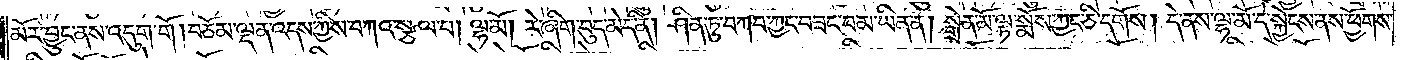མོར་བྱུང་ནས་འདུག་གོ །བཅོམ་ལྡན་འདས་ཀྱིས་བཀའ་སྩལ་པ། ལྷ་མོ། རེ་ཞིག་བུད་མེད་ནི། ཤིན་ཏུ་བཀབ་ཀྱང་བཟང་བ་མ་ཡིན་ན། སྒྲེན་མོ་ལྟ་སྨོས་ཀྱང་ཅི་དགོས། དེ་ནས་ལྷ་མོ་དེ་སྐྱེངས་ནས་ཕྱོགས་
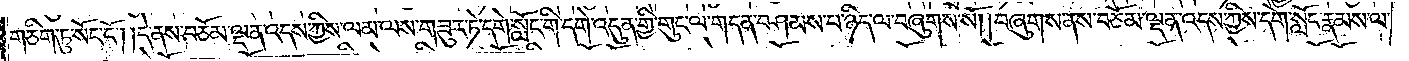གཅིག་ཏུ་སོང་ངོ༌། །དེ་ནས་བཅོམ་ལྡན་འདས་ཀྱིས་ལམ་ལས་གཟུར་ཏེ་དགེ་སློང་གི་དགེ་འདུན་གྱི་གུང་ལ་གདན་བཤམས་པ་ཉིད་ལ་བཞུགས་སོ། །བཞུགས་ནས་བཅོམ་ལྡན་འདས་ཀྱིས་དགེ་སློང་རྣམས་ལ་
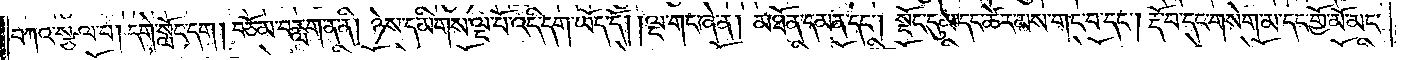བཀའ་སྩལ་པ། དགེ་སློང་དག །བཅོམ་བརླག་ན་ནི། ཉེས་དམིགས་ལྔ་པོ་འདི་དག་ཡོད་དོ། །ལྔ་གང་ཞེ་ན། མཐོ་ན་དམན་དང༌། སྡོང་དུམ་དང་ཚེར་མས་གང་བ་དང༌། རྡོ་བ་དང་གསེག་མ་དང་གྱོ་མོ་མང་
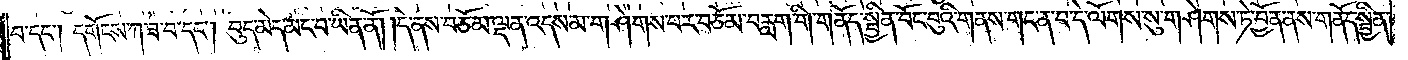བ་དང༌། དགོངས་ཀ་ཟ་བ་དང༌། བུད་མེད་མང་བ་ཡིན་ནོ། །དེ་ནས་བཅོམ་ལྡན་འདས་མ་གཤེགས་པར་བཅོམ་བརླག་གི་གནོད་སྦྱིན་བོང་བུའི་གནས་གང་ན་བ་དེ་ལོགས་སུ་གཤེགས་ཏེ་བྱོན་ནས་གནོད་སྦྱིན་
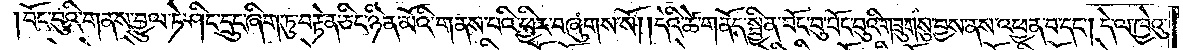བོང་བུའི་གནས་བྱུལ་ཏེ་ཤིང་དྲུང་ཞིག་ཏུ་བརྟེན་ཅིང་ཉིན་མོའི་གནས་པའི་ཕྱིར་བཞུགས་སོ། །དེའི་ཚེ་གནོད་སྦྱིན་བོང་བུ་བོང་བུའི་གཟུགས་སུ་བྱས་ནས་འཕྱན་པ་དང༌། དེ་ལ་ཁྱེའུ་
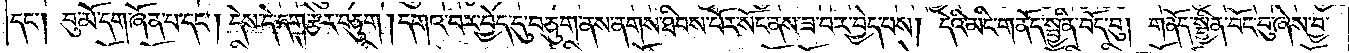དང༌། བུ་མོ་དག་ཞོན་པ་དང༌། དེས་དེ་དག་རྩེར་བཅུག །དགའ་བར་བྱེད་དུ་བཅུག་ནས་ནགས་ཐིབས་པོར་སོང་ནས་ཟ་བར་བྱེད་པས། དེའི་མིང་གནོད་སྦྱིན་བོང་བུ། གནོད་སྦྱིན་བོང་བུ་ཞེས་བྱ་
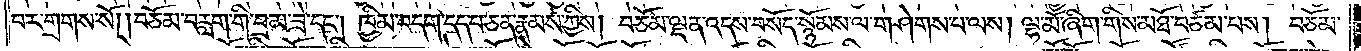བར་གྲགས་སོ། །བཅོམ་བརླག་གི་བྲམ་ཟེ་དང༌། ཁྱིམ་བདག་དད་པ་ཅན་རྣམས་ཀྱིས། བཅོམ་ལྡན་འདས་བསོད་སྙོམས་ལ་གཤེགས་པ་ལས། ལྷ་མོ་ཞིག་གིས་མཐོ་བ་ཙམ་པས། བཅོམ་
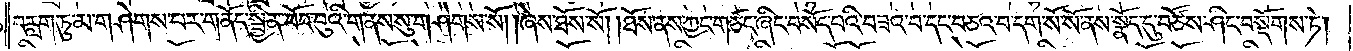བརླག་ཏུ་མ་གཤེགས་པར་གནོད་སྦྱིན་བོང་བུའི་གནས་སུ་གཤེགས་སོ། །ཞེས་ཐོས་སོ། །ཐོས་ནས་ཀྱང་གཙང་ཞིང་བསོད་པའི་བཟའ་བ་དང་བཅས་དག་སོ་སོ་ནས་སྣོད་དུ་བཙོས་ཤིང་བསྡོགས་ཏེ།
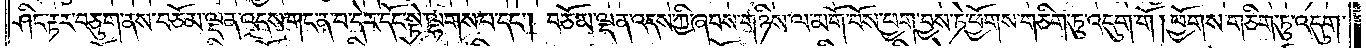ཤིང་རྟར་བཅུག་ནས་བཅོམ་ལྡན་འདས་གང་ན་བ་དེར་དོང་སྟེ་ལྷགས་པ་དང༌། བཅོམ་ལྡན་འདས་ཀྱི་ཞབས་གཉིས་ལ་མགོ་བོས་ཕྱག་བྱས་ཏེ་ཕྱོགས་གཅིག་ཏུ་འདུག་གོ །ཕྱོགས་གཅིག་ཏུ་འདུག་
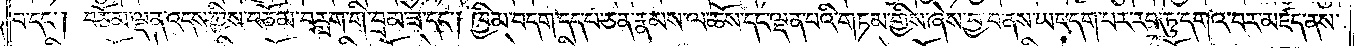པ་དང༌། བཅོམ་ལྡན་འདས་ཀྱིས་བཅོམ་བརླག་གི་བྲམ་ཟེ་དང༌། ཁྱིམ་བདག་དད་པ་ཅན་རྣམས་ལ་ཆོས་དང་ལྡན་པའི་གཏམ་གྱིས་ཞེས་བྱ་བ་ནས་ཡང་དག་པར་རབ་ཏུ་དགའ་བར་མཛད་ནས་
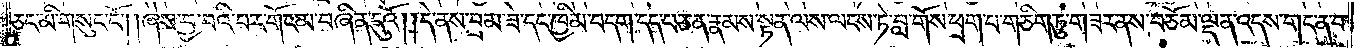ཅང་མི་གསུང་ངོ༌། །ཞེས་བྱ་བའི་བར་གོང་མ་བཞིན་དུའོ། །དེ་ནས་བྲམ་ཟེ་དང་ཁྱིམ་བདག་དད་པ་ཅན་རྣམས་སྟན་ལས་ལངས་ཏེ་བླ་གོས་ཕྲག་པ་གཅིག་ཏུ་གཟར་ནས་བཅོམ་ལྡན་འདས་གང་ན་བ་
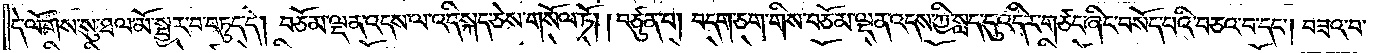དེ་ལོགས་སུ་ཐལ་མོ་སྦྱར་བ་བཏུད་དེ། བཅོམ་ལྡན་འདས་ལ་འདི་སྐད་ཅེས་གསོལ་ཏོ། །བཙུན་པ། བདག་ཅག་གིས་བཅོམ་ལྡན་འདས་ཀྱིས་སླད་དུ་འདིར་གཙང་ཞིང་བསོད་པའི་བཅའ་བ་དང༌། བཟའ་བ་
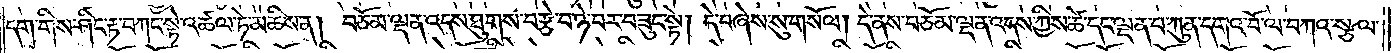དག་གིས་ཤིང་རྟ་བཀང་སྟེ་འཚལ་ཏེ་མཆིས་ན། བཅོམ་ལྡན་འདས་ཐུགས་བརྩེ་བ་ཉེ་བར་བཟུང་སྟེ། དེ་བཞེས་སུ་གསོལ། དེ་ནས་བཅོམ་ལྡན་འདས་ཀྱིས་ཚེ་དང་ལྡན་པ་ཀུན་དགའ་བོ་ལ་བཀའ་སྩལ་
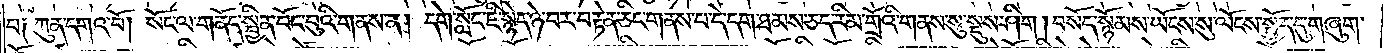པ༑ ཀུན་དགའ་བོ། སོང་ལ་གནོད་སྦྱིན་བོང་བུའི་གནས་ན། དགེ་སློང་ཇི་སྙེད་ཉེ་བར་བརྟེན་ཅིང་གནས་པ་དེ་དག་ཐམས་ཅད་རིམ་གྲོའི་གནས་སུ་སྡུས་ཤིག །བསོད་སྙོམས་ཡོངས་སུ་ལོངས་སྤྱོད་དུ་གཞུག་
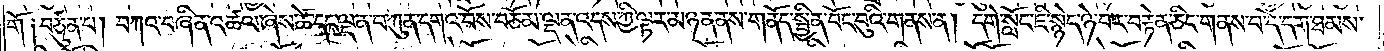གོ༑བཙུན་པ། བཀའ་བཞིན་འཚལ་ཞེས་ཚེ་དང་ལྡན་པ་ཀུན་དགའ་བོས་བཅོམ་ལྡན་འདས་ཀྱི་ལྟར་མཉན་ནས་གནོད་སྦྱིན་བོང་བུའི་གནས་ན། དགེ་སློང་ཇི་སྙེད་ཉེ་བར་བརྟེན་ཅིང་གནས་པ་དེ་དག་ཐམས་
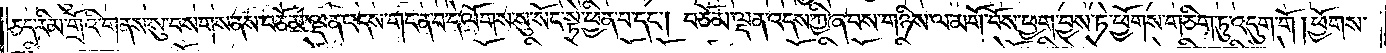ཅད་རིམ་གྲོའི་གནས་སུ་བསགས་ནས་བཅོམ་ལྡན་འདས་གང་ན་བ་དེ་ལོགས་སུ་སོང་སྟེ་ཕྱིན་པ་དང༌། བཅོམ་ལྡན་འདས་ཀྱི་ཞབས་གཉིས་ལ་མགོ་བོས་ཕྱག་བྱས་ཏེ་ཕྱོགས་གཅིག་ཏུ་འདུག་གོ །ཕྱོགས་
